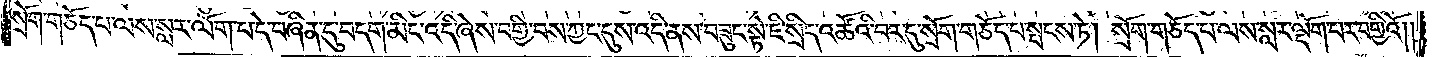སྲོག་གཅོད་པ་ལས་སླར་ལོག་པ་དེ་བཞིན་དུ་བདག་མིང་འདི་ཞེས་བགྱི་བས་ཀྱང་དུས་འདི་ནས་བཟུང་སྟེ་ཇི་སྲིད་འཚོའི་བར་དུ་སྲོག་གཅོད་པ་སྤངས་ཏེ། སྲོག་གཅོད་པ་ལས་སླར་ལྡོག་པར་བགྱིའོ།
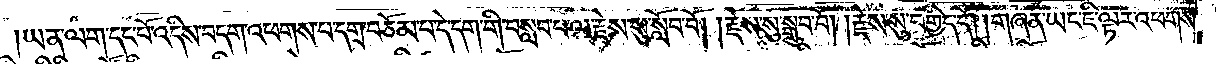ཡན་ལག་དང་པོ་འདིས་བདག་འཕགས་པ་དགྲ་བཅོམ་པ་དེ་དག་གི་བསླབ་པ་ལ་རྗེས་སུ་སློབ་བོ། །རྗེས་སུ་སྒྲུབ་བོ། །རྗེས་སུ་བགྱིད་དོ། །གཞན་ཡང་ཇི་ལྟར་འཕགས་
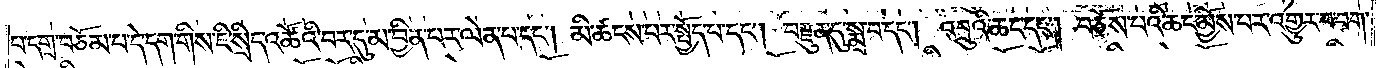པ་དགྲ་བཅོམ་པ་དེ་དག་གིས་ཇི་སྲིད་འཚོའི་བར་དུ་མ་བྱིན་པར་ལེན་པ་དང༌། མི་ཚངས་པར་སྤྱོད་པ་དང༌། བརྫུན་དུ་སྨྲ་བ་དང༌། འབྲུའི་ཆང་དང༌། བཅོས་པའི་ཆང་མྱོས་པར་འགྱུར་བ་བག་
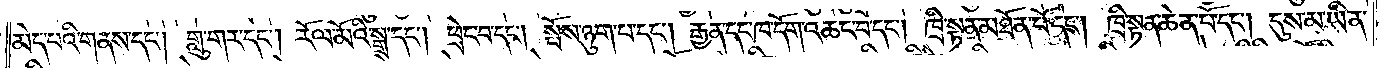མེད་པའི་གནས་དང༌། གླུ་གར་དང༌། རོལ་མོའི་སྒྲ་དང༌། ཕྲེང་བ་དང༌། སྤོས་ཉུག་པ་དང༌། རྒྱན་དང་ཁ་དོག་འཆང་བ་དང༌། ཁྲི་སྟན་མཐོན་པོ་དང༌། ཁྲི་སྟན་ཆེན་པོ་དང༌། དུས་མ་ཡིན་
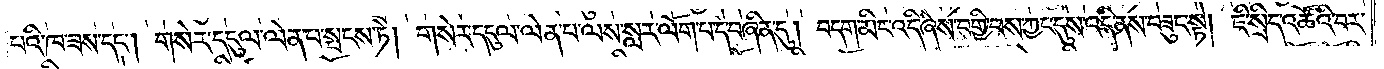པའི་ཁ་ཟས་དང༌། གསེར་དངུལ་ལེན་པ་སྤངས་ཏེ། གསེར་དངུལ་ལེན་པ་ལས་སླར་ལོག་པ་དེ་བཞིན་དུ། བདག་མིང་འདི་ཞེས་བགྱི་བས་ཀྱང་དུས་འདི་ནས་བཟུང་སྟེ། ཇི་སྲིད་འཚོའི་བར་
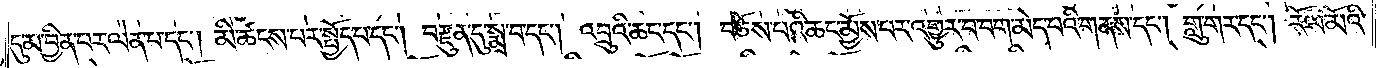དུ་མ་བྱིན་པར་ལེན་པ་དང༌། མི་ཚངས་པར་སྤྱོད་པ་དང༌། བརྫུན་དུ་སྨྲ་བ་དང༌། འབྲུའི་ཆང་དང༌། བཅོས་པའི་ཆང་མྱོས་པར་འགྱུར་བ་བག་མེད་པའི་གནས་དང༌། གླུ་གར་དང༌། རོལ་མོའི་
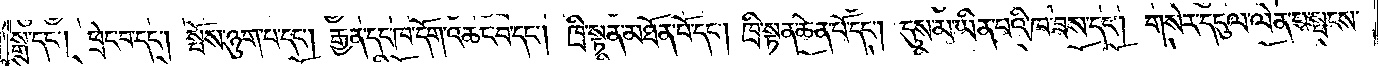སྒྲ་དང༌། ཕྲེང་བ་དང༌། སྤོས་ཉུག་པ་དང༌། རྒྱན་དང་ཁ་དོག་འཆང་བ་དང༌། ཁྲི་སྟན་མཐོན་པོ་དང༌། ཁྲི་སྟན་ཆེན་པོ་དང༌། དུས་མ་ཡིན་པའི་ཁ་ཟས་དང༌། གསེར་དངུལ་ལེན་པ་སྤངས་
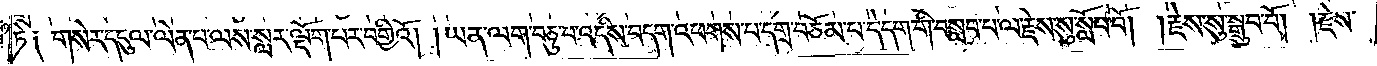ཏེ༑ གསེར་དངུལ་ལེན་པ་ལས་སླར་ལྡོག་པར་བགྱིའོ། །ཡན་ལག་བཅུ་པ་འདིས་བདག་འཕགས་པ་དགྲ་བཅོམ་པ་དེ་དག་གི་བསླབ་པ་ལ་རྗེས་སུ་སློབ་བོ། །རྗེས་སུ་སྒྲུབ་བོ། །རྗེས་
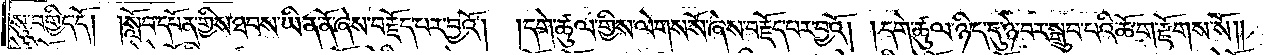སུ་བགྱིད་དོ། །སློབ་དཔོན་གྱིས་ཐབས་ཡིན་ནོ་ཞེས་བརྗོད་པར་བྱའོ། །དགེ་ཚུལ་གྱིས་ལེགས་སོ་ཞེས་བརྗོད་པར་བྱའོ། །དགེ་ཚུལ་ཉིད་དུ་ཉེ་བར་སྒྲུབ་པའི་ཆོ་ག་རྫོགས་སོ༎
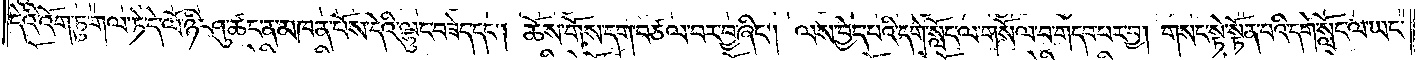དེའི་འོག་ཏུ་གལ་ཏེ་དེ་ལོ་ཉི་ཤུ་ཚང་ན་མཁན་པོས་དེའི་ལྷུང་བཟེད་དང༌། ཆོས་གོས་དག་བཙལ་བར་བྱ་ཞིང༌། ལས་བྱེད་པའི་དགེ་སློང་ལ་གསོལ་བ་གདབ་པར་བྱ། གསང་སྟེ་སྟོན་བའི་དགེ་སློང་ལ་ཡང་
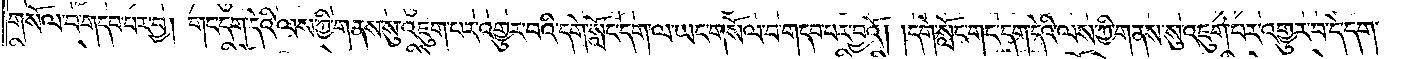གསོལ་བ་གདབ་པར་བྱ། གང་དག་དེའི་ལས་ཀྱི་གནས་སུ་འཇུག་པར་འགྱུར་བའི་དགེ་སློང་དག་ལ་ཡང་གསོལ་བ་གདབ་པར་བྱའོ། །དགེ་སློང་གང་དག་དེའི་ལས་ཀྱི་གནས་སུ་འཇུག་པར་འགྱུར་བ་དེ་དག་
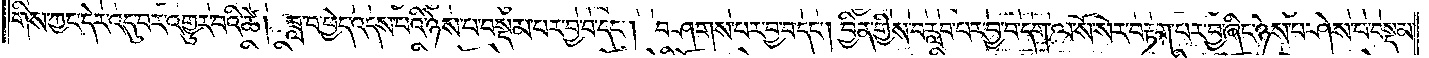གིས་ཀྱང་དེར་འདུ་བར་འགྱུར་བའི་ཚེ། ཟླ་བ་ཕྱེད་འདས་པའི་ཉེས་པ་བསྡམ་པར་བྱ་བ་དང༌། བཤགས་པར་བྱ་བ་དང༌། བྱིན་གྱིས་བརླབ་པར་བྱ་བ་དག་ལ་སོ་སོར་བརྟག་པར་བྱ་ཞིང་ཉེས་པ་ཤེས་པ་བསྡམ་
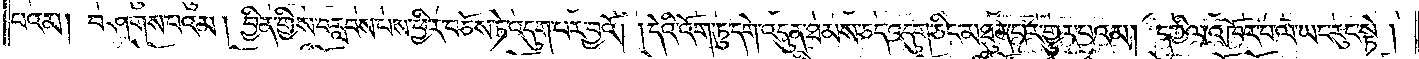པའམ། བཤགས་པའམ། བྱིན་གྱིས་བརླབས་པས་ཕྱིར་བཅོས་ཏེ་འདུག་པར་བྱའོ། །དེའི་འོག་ཏུ་དགེ་འདུན་ཐམས་ཅད་འདུག་ཅིང་མཐུན་པར་གྱུར་པའམ། དཀྱིལ་འཁོར་པ་ལ་ཡང་རུང་སྟེ།
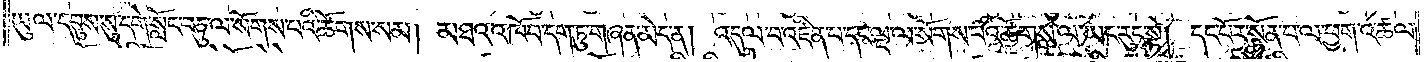ཡུལ་དབུས་སུ་དགེ་སློང་བཅུ་ལ་སོགས་པའི་ཚོགས་སམ། མཐའ་འཁོབ་དག་ཏུ་གཞན་མེད་ན། འདུལ་བ་འཛིན་པ་དང་ལྔ་ལ་སོགས་པའི་ཚོགས་ལ་ཡང་རུང་སྟེ། དང་པོར་སྟོན་པ་ལ་ཕྱག་འཚལ་
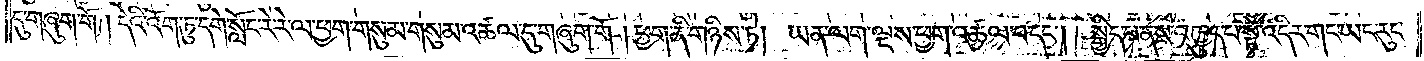དུ་གཞུག་གོ །དེའི་འོག་ཏུ་དགེ་སློང་རེ་རེ་ལ་ཕྱག་གསུམ་གསུམ་འཚལ་དུ་གཞུག་གོ །ཕྱག་ནི་གཉིས་ཏེ། ཡན་ལག་ལྔས་ཕྱག་འཚལ་པ་དང༌། སྒྱིད་པ་ནས་འཁྱུད་པ་སྟེ་འདིར་གང་ཡང་རུང་
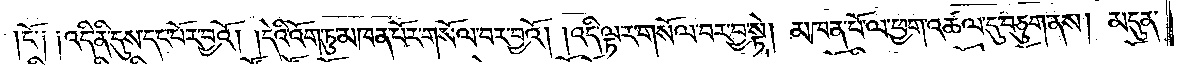ངོ་༑ ༑འདི་ནི་དུས་དང་པོར་བྱའོ། །དེའི་འོག་ཏུ་མཁན་པོར་གསོལ་བར་བྱའོ། །འདི་ལྟར་གསོལ་བར་བྱ་སྟེ། མཁན་པོ་ལ་ཕྱག་འཚལ་དུ་བཅུག་ནས། མདུན་
